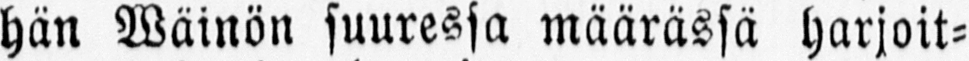hän Wäinön suuressa määrässä harjoit-
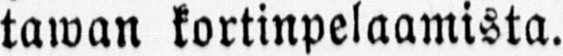tawan kortinpelaamista.
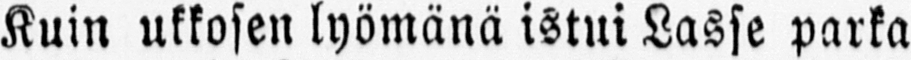Kuin ukkosen lyömänä istui Lasse parka
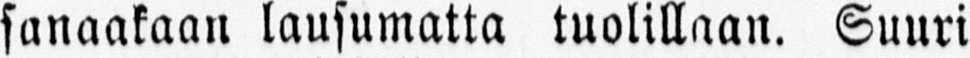sanaakaan lausumatta tuolillaan. Suuri
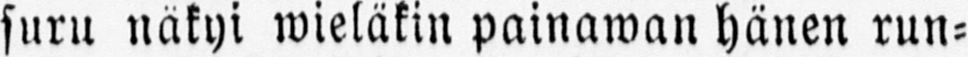suru näkyi wieläkin painawan hänen run-
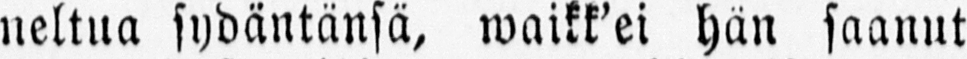neltua sydäntänsä, waikk'ei hän saanut
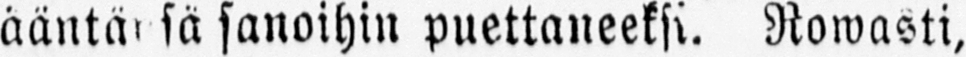ääntänsä sanoihin puettaneeksi. Rowasti,
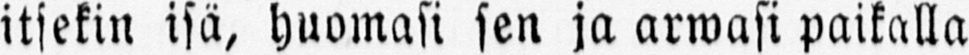itsekin isä, huomasi sen ja arwasi paikalla
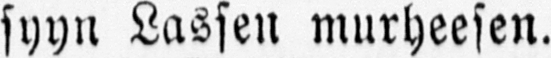syyn Lassen murheesen.
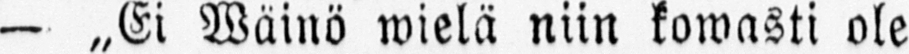— „Ei Wäinö wielä niin kowasti ole
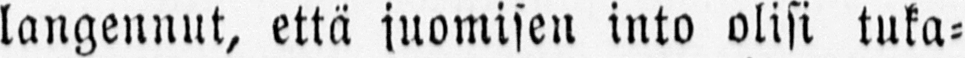langennut, että juomisen into olisi tuka-
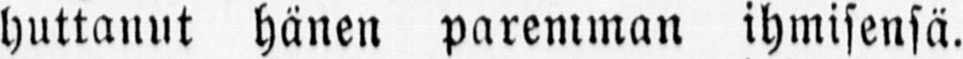huttanut hänen paremman ihmisensä.
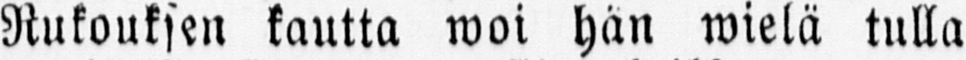Rukouksen kautta woi hän wielä tulla
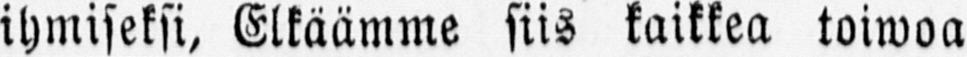ihmiseksi, Elkäämme siis kaikkea toiwoa
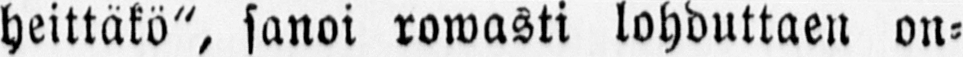heittäkö", sanoi rowasti lohduttaen on-
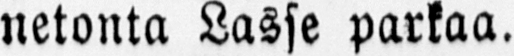netonta Lasse parkaa.
